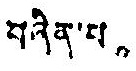བཞིན་པ。
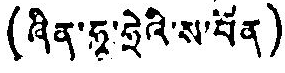(ཞིན་ཧྭ་ཧྲེའི་ས་བོན)
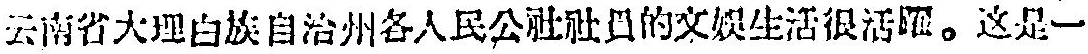云南省大理白族自治州各人民公社社員的文娛生活很活躍。这是一
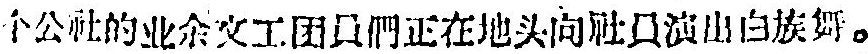个公社的业余文工团員們正在地头向社員演出白族舞。
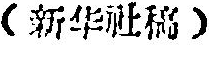（新华社稿）
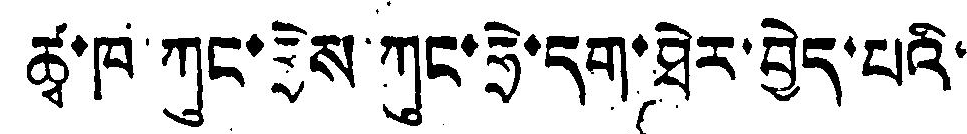ཚྭ་ཁ་ཀུང་ཧྲེས་ཀུང་ཧྲེ་དག་ཐེར་བྱེད་པའི་
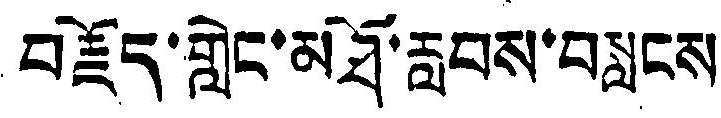བརྗོད་གླེང་མཐོ་རླབས་བསླངས
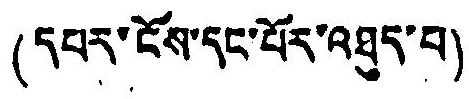(དཔར་ངོས་དང་པོར་འཐུད་པ)
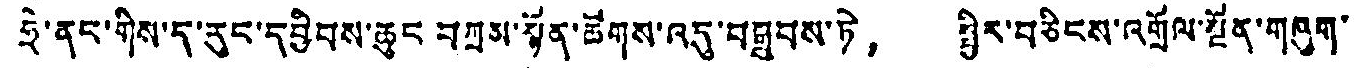ཧྲེ་ནང་གིས་ད་རུང་དབྱིབས་ཆུང བཀྲམ་སྟོན་ཚོགས་འདུ་བསྒྲུབས་ཏེ， སྤྱིར་བཅིངས་འགྲོལ་སྔོན་གཞུག་
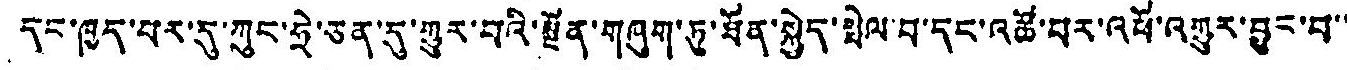དང་ཁྱད་པར་དུ་ཀུང་ཧྲེ་ཅན་དུ་གྱུར་བའི་སྔོན་གཞུག་ཏུ་ཐོན་སྐྱེད་སྤེལ་བ་དང་འཚོ་བར་འཕོ་འགྱུར་བྱུང་བ་་
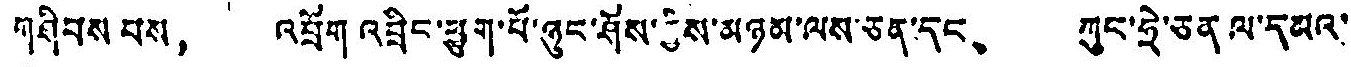གཤིབས པས， འབྲོག འབྲིང་ཕྱུག་པོ་ཉུང་ཤོས་ཀྱིས་མཉམ་ལས་ཅན་དང、 ཀུང་ཧྲེ་ཅན ལ་དམའ་
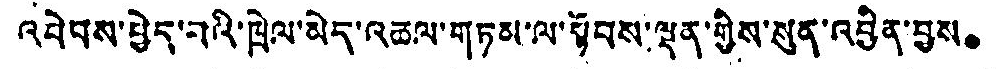འབེབས་བྱེད་པའི་ཁྲེལ་མེད་འཆལ་གཏམ་ལ་སྟོབས་ལྡན་གྱིས་སུན་འབྱིན་བྱས。
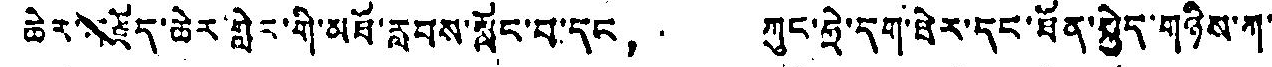ཆེར་གརྗོད་ཆེར་གླེང་གི་མཐོ་རླབས་སློང་བ་དང， ཀུང་ཧྲེ་དག་ཐེར་དང་ཐོན་སྐྱེད་གཉིས་ཀ་
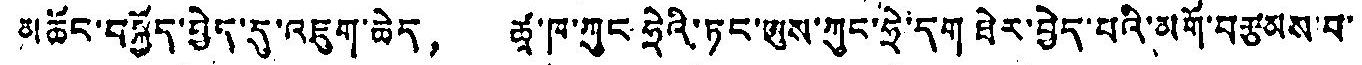མཆོང་བསྐྱོད་བྱེད་དུ་འཇུག་ཆེད， ཚྭ་ཁ་ཀུང ཧྲེའི་ཏང་ཨུས་ཀུང་ཧྲེ་དག ཐེར་བྱེད་པའི་མགོ་བརྩམས་པ་
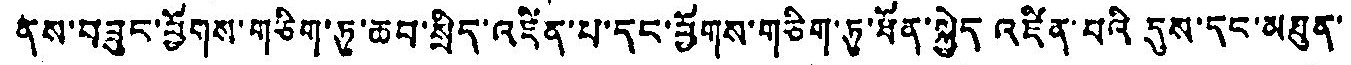ནས་བཟུང་ཕྱོགས་གཅིག་ཏུ་ཆབ་སྲིད་འཛིན་པ་དང་ཕྱོགས་གཅིག་ཏུ་ཐོན་སྐྱེད འཛིན་པའི དུས་དང་མཐུན་
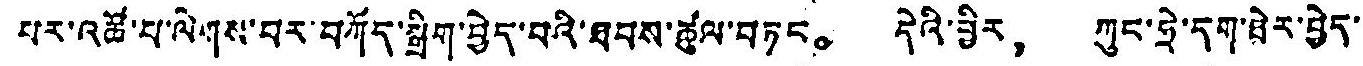པར་འཚོ་པ་ལེགས་པར་བཀོད་སྒྲིག་བྱེད་པའི་ཐབས་ཚུལ་བཏང。 དེའི་ཕྱིར， ཀུང་ཧྲེ་དག་ཐེར་བྱེད་
